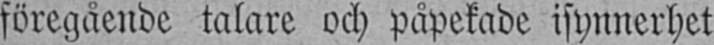föregående talare och påpekade isynnerhet
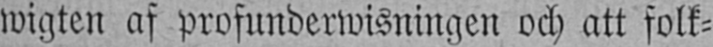wigten af profunderwisningen och att folk-
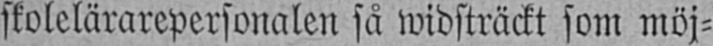skolelärarepersonalen så widsträckt som möj-
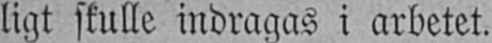ligt skulle indragas i arbetet.
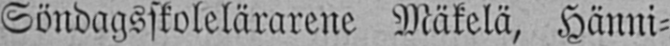Söndagsskolelärarene Mäkelä, Hänni-
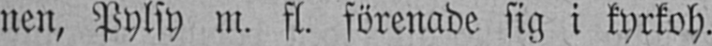nen, Pylsy m. fl. förenade sig i kyrkoh.
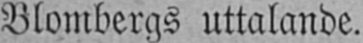Blombergs uttalande.
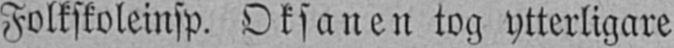Folkskoleinsp. Oksanen tog ytterligare
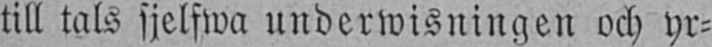till tals sjelfwa underwisningen och yr-
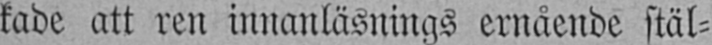kade att ren innanläsnings ernående stäl-
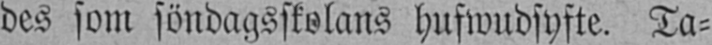des som söndagsskolans hufwudsyfte. Ta-
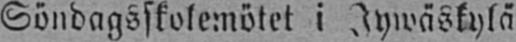Söndagsskolemötet i Jywäskylä
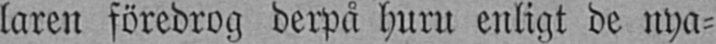laren föredrog derpå huru enligt de nya-
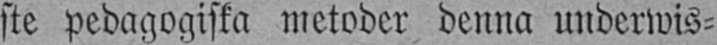ste pedagogiska metoder denna underwis-
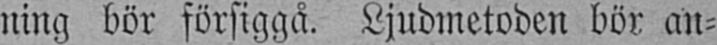ning bör försiggå. Ljudmetoden bör an-
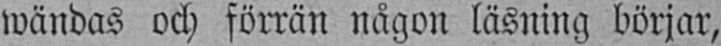wändas och förrän någon läsning börjar,
